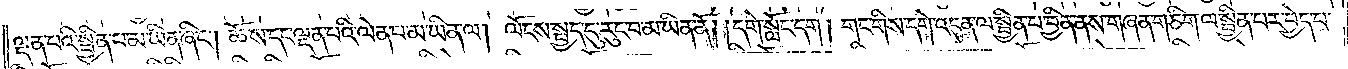ལྡན་པའི་སྦྱིན་པ་མ་ཡིན་ཞིང༌། ཆོས་དང་ལྡན་པའི་ལེན་པ་མ་ཡིན་ལ། ལོངས་སྤྱད་དུ་རུང་བ་མ་ཡིན་ནོ། །དགེ་སློང་དག ། གང་གིས་དགེ་འདུན་ལ་སྦྱིན་པ་བྱིན་ནས་གཞན་གཅིག་ལ་སྦྱིན་པར་བྱེད་པ་
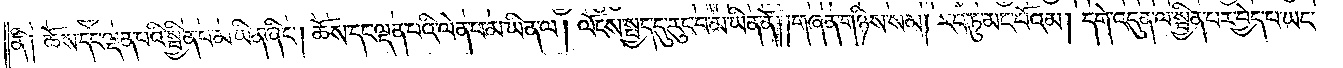ནི༑ ཆོས་དང་ལྡན་པའི་སྦྱིན་པ་མ་ཡིན་ཞིང༌། ཆོས་དང་ལྡན་པའི་ལེན་པ་མ་ཡིན་ལ། ལོངས་སྤྱད་དུ་རུང་བ་མ་ཡིན་ནོ། །གཞན་གཉིས་སམ། རབ་ཏུ་མང་པོའམ། དགེ་འདུན་ལ་སྦྱིན་པར་བྱེད་པ་ཡང་
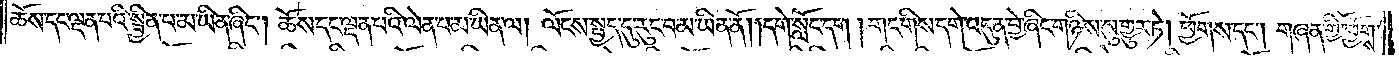ཆོས་དང་ལྡན་པའི་སྦྱིན་པ་མ་ཡིན་ཞིང༌། ཆོས་དང་ལྡན་པའི་ལེན་པ་མ་ཡིན་ལ། ལོངས་སྤྱད་དུ་རུང་བ་མ་ཡིན་ནོ། །དགེ་སློང་དག །གང་གིས་དགེ་འདུན་བྱེ་ཞིང་གཉིས་སུ་གྱུར་ཏེ། ཕྱོགས་དང༌། གཞན་གྱི་ཕྱོགས་
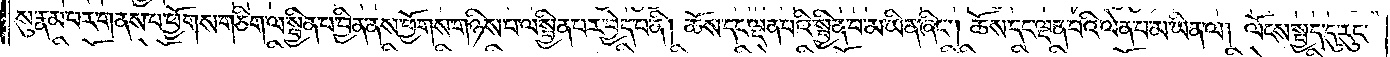སུ་རྣམ་པར་གནས་པ་ཕྱོགས་གཅིག་ལ་སྦྱིན་པ་བྱིན་ནས་ཕྱོགས་གཉིས་པ་ལ་སྦྱིན་པར་བྱེད་པ་ནི། ཆོས་དང་ལྡན་པའི་སྦྱིན་པ་མ་ཡིན་ཞིང༌། ཆོས་དང་ལྡན་པའི་ལེན་པ་མ་ཡིན་ལ། ལོངས་སྤྱད་དུ་རུང་
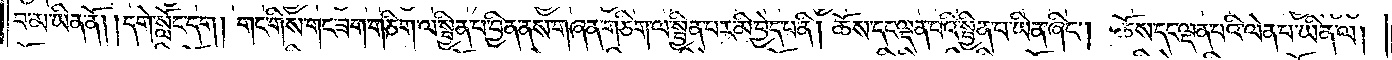བ་མ་ཡིན་ནོ། །དགེ་སློང་དག། གང་གིས་གང་ཟག་གཅིག་ལ་སྦྱིན་པ་བྱིན་ནས་གཞན་གཅིག་ལ་སྦྱིན་པར་མི་བྱེད་པ་ནི། ཆོས་དང་ལྡན་པའི་སྦྱིན་པ་ཡིན་ཞིང༌། ཆོས་དང་ལྡན་པའི་ལེན་པ་ཡིན་ལ།
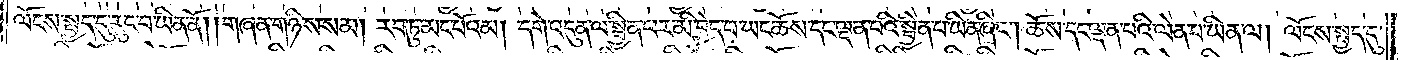ལོངས་སྤྱོད་དུ་རུང་བ་ཡིན་ནོ། །གཞན་གཉིས་སམ། རབ་ཏུ་མང་པོའམ། དགེ་འདུན་ལ་སྦྱིན་པར་མི་བྱེད་པ་ཡང་ཆོས་དང་ལྡན་པའི་སྦྱིན་པ་ཡིན་ཞིང༌། ཆོས་དང་ལྡན་པའི་ལེན་པ་ཡིན་ལ། ལོངས་སྤྱད་དུ་
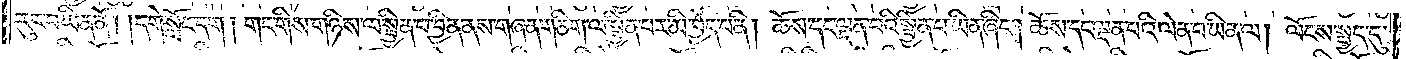རུང་བ་ཡིན་ནོ། །དགེ་སློང་དག ། གང་གིས་གཉིས་ལ་སྦྱིན་པ་བྱིན་ནས་གཞན་གཅིག་ལ་སྦྱིན་པར་མི་བྱེད་པ་ནི། ཆོས་དང་ལྡན་པའི་སྦྱིན་པ་ཡིན་ཞིང༌། ཆོས་དང་ལྡན་པའི་ལེན་པ་ཡིན་ལ། ལོངས་སྤྱད་དུ་
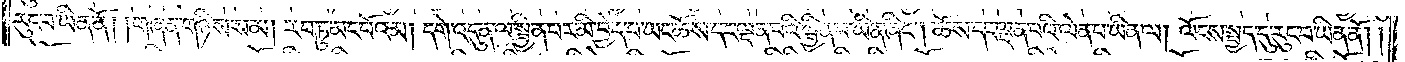རུང་བ་ཡིན་ནོ། །གཞན་གཉིས་སམ། རབ་ཏུ་མང་པོའམ། དགེ་འདུན་ལ་སྦྱིན་པར་མི་བྱེད་པ་ཡང་ཆོས་དང་ལྡན་པའི་སྦྱིན་པ་ཡིན་ཞིང༌། ཆོས་དང་ལྡན་པའི་ལེན་པ་ཡིན་ལ། ལོངས་སྤྱད་དུ་རུང་བ་ཡིན་ནོ། །
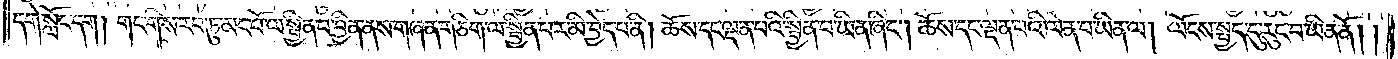དགེ་སློང་དག། གང་གིས་རབ་ཏུ་མང་པོ་ལ་སྦྱིན་པ་བྱིན་ནས་གཞན་གཅིག་ལ་སྦྱིན་པར་མི་བྱེད་པ་ནི། ཆོས་དང་ལྡན་པའི་སྦྱིན་པ་ཡིན་ཞིང༌། ཆོས་དང་ལྡན་པའི་ལེན་པ་ཡིན་ལ། ལོངས་སྤྱད་དུ་རུང་བ་ཡིན་ནོ། །
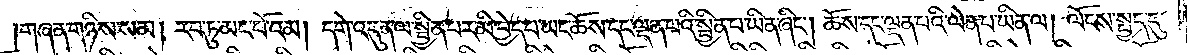གཞན་གཉིས་སམ། རབ་ཏུ་མང་པོའམ། དགེ་འདུན་ལ་སྦྱིན་པར་མི་བྱེད་པ་ཡང་ཆོས་དང་ལྡན་པའི་སྦྱིན་པ་ཡིན་ཞིང༌། ཆོས་དང་ལྡན་པའི་ལེན་པ་ཡིན་ལ། ལོངས་སྤྱད་དུ་
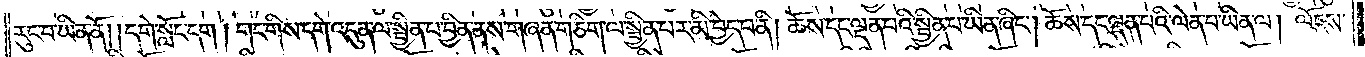རུང་བ་ཡིན་ནོ། །དགེ་སློང་དག། གང་གིས་དགེ་འདུན་ལ་སྦྱིན་པ་བྱིན་ནས་གཞན་གཅིག་ལ་སྦྱིན་པར་མི་བྱེད་པ་ནི། ཆོས་དང་ལྡན་པའི་སྦྱིན་པ་ཡིན་ཞིང༌། ཆོས་དང་ལྡན་པའི་ལེན་པ་ཡིན་ལ། ལོངས་
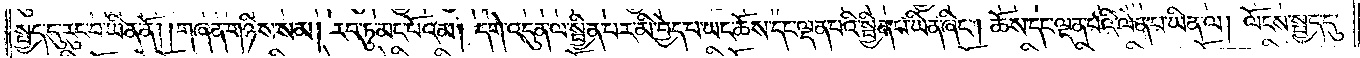སྤྱད་དུ་རུང་བ་ཡིན་ནོ། །གཞན་གཉིས་སམ། རབ་ཏུ་མང་པོའམ། དགེ་འདུན་ལ་སྦྱིན་པར་མི་བྱེད་པ་ཡང་ཆོས་དང་ལྡན་པའི་སྦྱིན་པ་ཡིན་ཞིང༌། ཆོས་དང་ལྡན་པའི་ལེན་པ་ཡིན་ལ། ལོངས་སྤྱད་དུ་
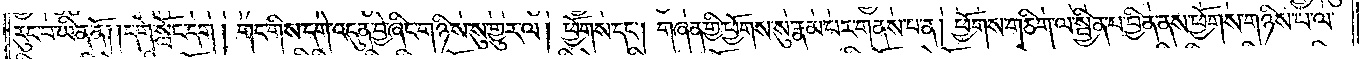རུང་བ་ཡིན་ནོ། །དགེ་སློང་དག ། གང་གིས་དགེ་འདུན་བྱེ་ཞིང་གཉིས་སུ་གྱུར་ལ། ཕྱོགས་དང༌། གཞན་གྱི་ཕྱོགས་སུ་རྣམ་པར་གནས་པ་ན། ཕྱོགས་གཅིག་ལ་སྦྱིན་པ་བྱིན་ནས་ཕྱོགས་གཉིས་པ་ལ་
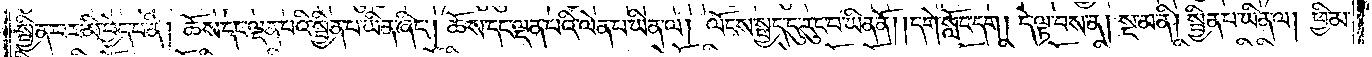སྦྱིན་པར་མི་བྱེད་པ་ནི། ཆོས་དང་ལྡན་པའི་སྦྱིན་པ་ཡིན་ཞིང༌། ཆོས་དང་ལྡན་པའི་ལེན་པ་ཡིན་ལ། ལོངས་སྤྱད་དུ་རུང་བ་ཡིན་ནོ། །དགེ་སློང་དག། དེ་ལྟ་བས་ན། སྔ་མ་ནི། སྦྱིན་པ་ཡིན་ལ། ཕྱི་མ་
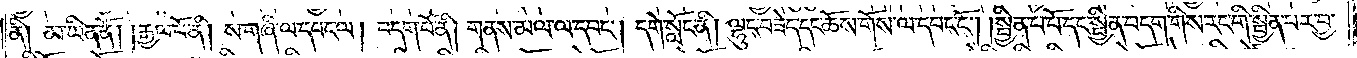ནི། མ་ཡིན་ནོ། །རྒྱལ་པོ་ནི། ས་གཞི་ལ་དབང་ལ། བདག་པོ་ནི། གནས་མལ་ལ་དབང༌། དགེ་སློང་ནི། ལྷུང་བཟེད་དང་ཆོས་གོས་ལ་དབང་ངོ༌། །སྦྱིན་པ་པོ་དང་སྦྱིན་བདག་གིས་རང་གི་སྦྱིན་པར་བྱ་
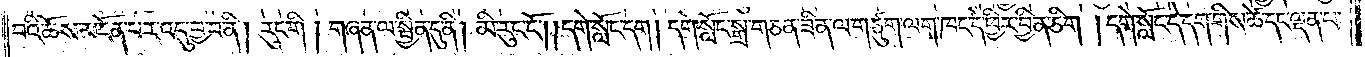བའི་ཆོས་མངོན་པར་འདུ་བྱ་བ་ནི། རུང་གི ། གཞན་ལ་སྦྱིན་དུ་ནི། མི་རུང་ངོ༌། །དགེ་སློང་དག། དགེ་སློང་སྒྲ་གཅན་ཟིན་ལ་གཙུག་ལག་ཁང་དེ་ཕྱིན་བྱིན་ཅིག །དགེ་སློང་དེ་དག་གིས་ཚེ་དང་ལྡན་པ་
